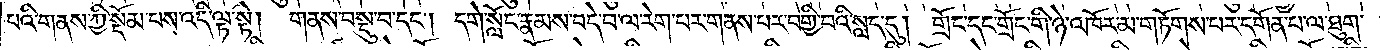པའི་གནས་ཀྱི་སྡོམ་པས་འདི་ལྟ་སྟེ། གནས་བསྡུ་བ་དང༌། དགེ་སློང་རྣམས་བདེ་བ་ལ་རེག་པར་གནས་པར་བགྱི་བའི་སླད་དུ། གྲོང་དང་གྲོང་གི་ཉེ་འཁོར་མ་གཏོགས་པར་དགོན་པ་ལ་ཐུག་
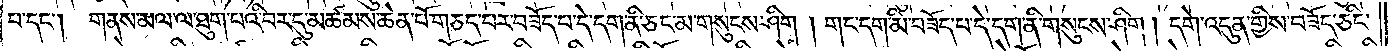པ་དང༌། གནས་མལ་ལ་ཐུག་པའི་བར་དུ་མཚམས་ཆེན་པོ་གཅད་པར་བཟོད་པ་དེ་དག་ནི་ཅང་མ་གསུངས་ཤིག །གང་དག་མི་བཟོད་པ་དེ་དག་ནི་གསུངས་ཤིག། དགེ་འདུན་གྱིས་བཟོད་ཅིང་
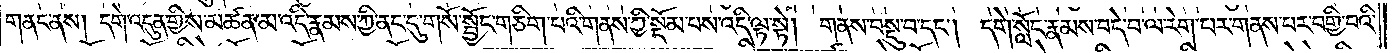གནང་ནས། དགེ་འདུན་གྱིས་མཚན་མ་འདི་རྣམས་ཀྱི་ནང་དུ་གསོ་སྦྱོང་གཅིག་པའི་གནས་ཀྱི་སྡོམ་པས་འདི་ལྟ་སྟེ། གནས་བསྡུ་བ་དང༌། དགེ་སློང་རྣམས་བདེ་བ་ལ་རེག་པར་གནས་པར་བགྱི་བའི་
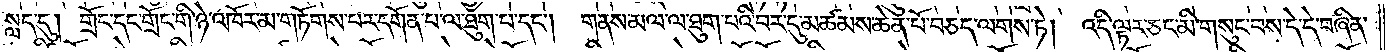སླད་དུ། གྲོང་དང་གྲོང་གི་ཉེ་འཁོར་མ་གཏོགས་པར་དགོན་པ་ལ་ཐུག་པ་དང༌། གནས་མལ་ལ་ཐུག་པའི་བར་དུ་མཚམས་ཆེན་པོ་བཅད་ལགས་ཏེ། འདི་ལྟར་ཅང་མི་གསུང་བས་དེ་དེ་བཞིན་
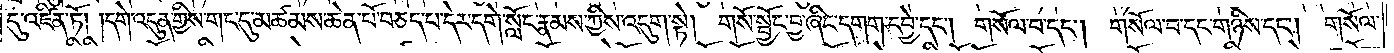དུ་འཛིན་ཏོ། །དགེ་འདུན་གྱིས་གང་དུ་མཚམས་ཆེན་པོ་བཅད་པ་དེར་དགེ་སློང་རྣམས་ཀྱིས་འདུག་སྟེ། གསོ་སྦྱོང་བྱ་ཞིང་དགག་དབྱེ་དང༌། གསོལ་བ་དང༌། གསོལ་བ་དང་གཉིས་དང༌། གསོལ་
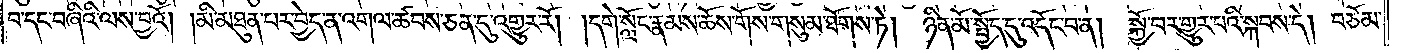བ་དང་བཞིའི་ལས་བྱའོ། །མི་མཐུན་བར་བྱེད་ན་འགལ་ཚབས་ཅན་དུ་འགྱུར་རོ། །དགེ་སློང་རྣམས་ཆོས་གོས་གསུམ་ཐོགས་ཏེ། ཉིན་མོ་སྤྱོད་དུ་འདོང་བ་ན། སྐྱོ་བར་གྱུར་པའི་སྐབས་དེ། བཅོམ་
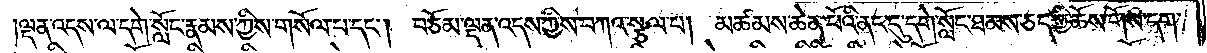ལྡན་འདས་ལ་དགེ་སློང་རྣམས་ཀྱིས་གསོལ་པ་དང༌། བཅོམ་ལྡན་འདས་ཀྱིས་བཀའ་སྩལ་པ། མཚམས་ཆེན་པོའི་ནང་དུ་དགེ་སློང་ཐམས་ཅད་ཀྱི་ཆོས་གོས་དག་
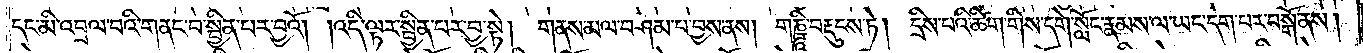དང་མི་འབྲལ་བའི་གནང་བ་སྦྱིན་པར་བྱའོ། །འདི་ལྟར་སྦྱིན་པར་བྱ་སྟེ། གནས་མལ་བཤམ་པ་བྱས་ནས། གཎྜཱི་བརྡུངས་ཏེ། དྲིས་པའི་ཚིག་གིས་དགེ་སློང་རྣམས་ལ་ཡང་དག་པར་བསྒོ་ནས།
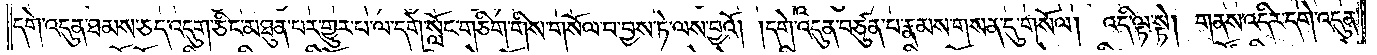དགེ་འདུན་ཐམས་ཅད་འདུག་ཅིང་མཐུན་པར་གྱུར་པ་ལ་དགེ་སློང་གཅིག་གིས་གསོལ་བ་བྱས་ཏེ་ལས་བྱའོ། །དགེ་འདུན་བཙུན་པ་རྣམས་གསན་དུ་གསོལ། འདི་ལྟ་སྟེ། གནས་འདིར་དགེ་འདུན་
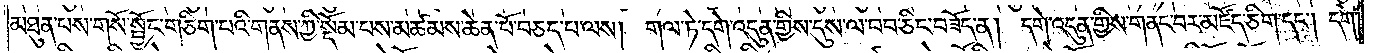མཐུན་པས་གསོ་སྦྱོང་གཅིག་པའི་གནས་ཀྱི་སྡོམ་པས་མཚམས་ཆེན་པོ་བཅད་པ་ལས། གལ་ཏེ་དགེ་འདུན་གྱིས་དུས་ལ་བབ་ཅིང་བཟོད་ན། དགེ་འདུན་གྱིས་གནང་བར་མཛོད་ཅིག་དང༌། དགེ་
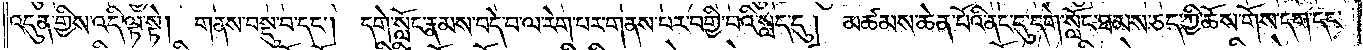འདུན་གྱིས་འདི་ལྟ་སྟེ། གནས་བསྡུ་བ་དང༌། དགེ་སློང་རྣམས་བདེ་བ་ལ་རེག་པར་གནས་པར་བགྱི་བའི་སླད་དུ། མཚམས་ཆེན་པོའི་ནང་དུ་དགེ་སློང་ཐམས་ཅད་ཀྱི་ཆོས་གོས་དག་དང་
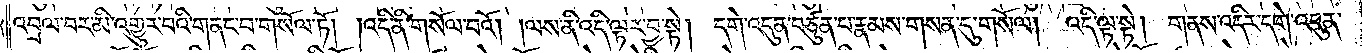འབྲལ་བར་མི་འགྱུར་བའི་གནང་བ་གསོལ་ཏོ། །འདི་ནི་གསོལ་བའོ། །ལས་ནི་འདི་ལྟར་བྱ་སྟེ། དགེ་འདུན་བཙུན་པ་རྣམས་གསན་དུ་གསོལ། འདི་ལྟ་སྟེ། གནས་འདིར་དགེ་འདུན་
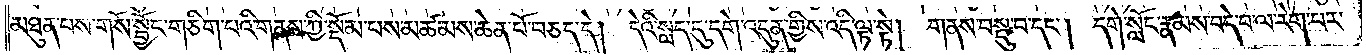མཐུན་པས་གསོ་སྦྱོང་གཅིག་པའི་གནས་ཀྱི་སྡོམ་པས་མཚམས་ཆེན་པོ་བཅད་དེ། དེའི་སླད་དུ་དགེ་འདུན་གྱིས་འདི་ལྟ་སྟེ། གནས་བསྡུ་བ་དང༌། དགེ་སློང་རྣམས་བདེ་བ་ལ་རེག་པར་
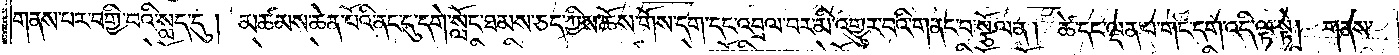གནས་པར་བགྱི་བའི་སླད་དུ། མཚམས་ཆེན་པོའི་ནང་དུ་དགེ་སློང་ཐམས་ཅད་ཀྱིས་ཆོས་གོས་དག་དང་འབྲལ་བར་མི་འགྱུར་བའི་གནང་བ་སྩོལ་ན། ཚེ་དང་ལྡན་པ་གང་དག་འདི་ལྟ་སྟེ། གནས་
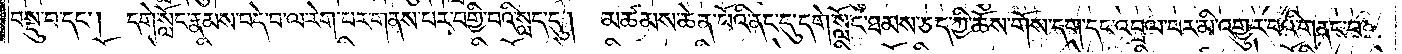བསྡུ་བ་དང༌། དགེ་སློང་རྣམས་བདེ་བ་ལ་རེག་པར་གནས་པར་བགྱི་བའི་སླད་དུ། མཚམས་ཆེན་པོའི་ནང་དུ་དགེ་སློང་ཐམས་ཅད་ཀྱི་ཆོས་གོས་དག་དང་འབྲལ་བར་མི་འགྱུར་བའི་གནང་བ་
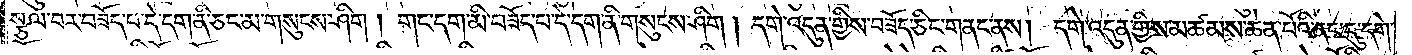སྩལ་བར་བཟོད་པ་དེ་དག་ནི་ཅང་མ་གསུངས་ཤིག། གང་དག་མི་བཟོད་པ་དེ་དག་ནི་གསུངས་ཤིག། དགེ་འདུན་གྱིས་བཟོད་ཅིང་གནང་ནས། དགེ་འདུན་གྱིས་མཚམས་ཆེན་པོའི་ནང་དུ་དགེ་
